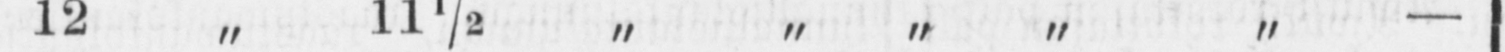12 „ 11½ „ „ „ „ „ —
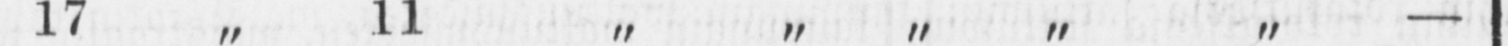17 „ 11 „ „ „ „ „ —
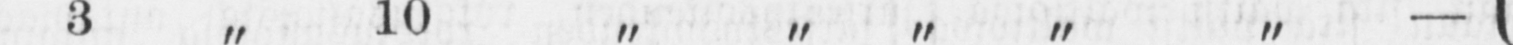3 „ 10 „ „ „ „ „ —
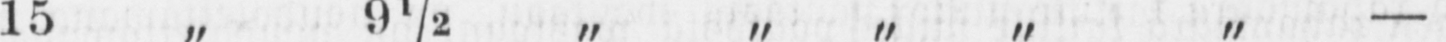15 „ 9½ „ „ „ „ „ —
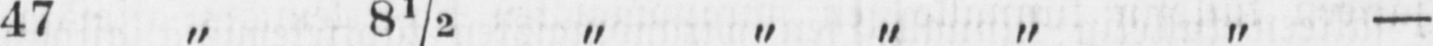47 „ 8½ „ „ „ „ „ —
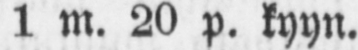1 m. 20 p. kyyn.
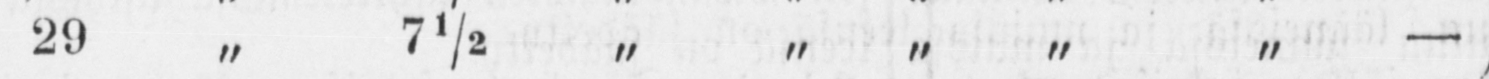29 „ 7½ „ „ „ „ „ —
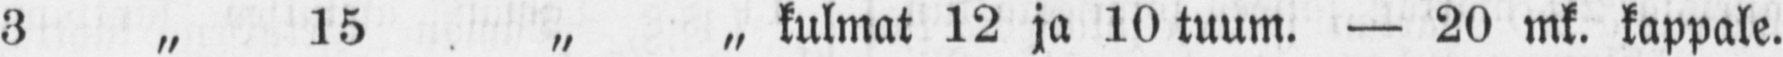3 „ 15 „ „ kulmat 12 ja 10 tuum. — 20 mk. kappale.
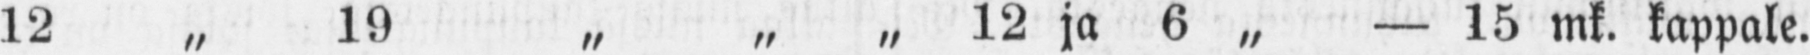12 „ 19 „ „ „ 12 ja 6 „ — 15 mk. kappale.
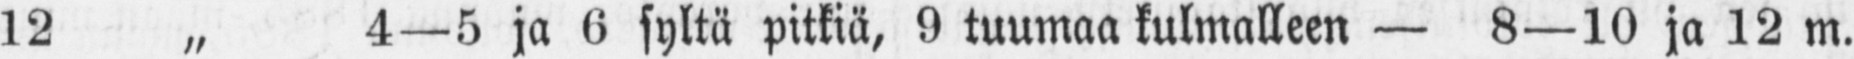12 „ 4—5 ja 6 syltä pitkiä, 9 tuumaa kulmalleen — 8—10 ja 12 m.
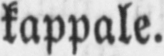kappale.
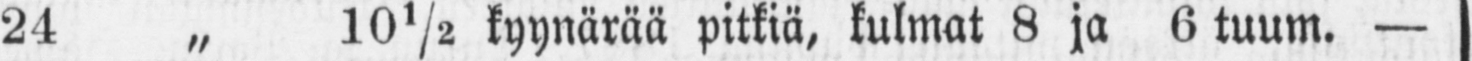24 „ 10½ kyynärää pitkiä, kulmat 8 ja 6 tuum. —
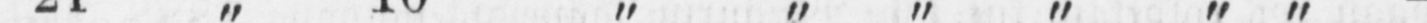21 „ 10 „ „ „ „ „ „ „ —
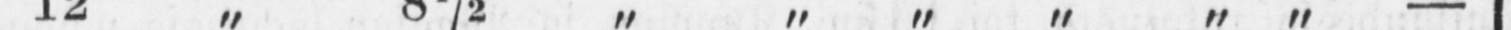12 „ 8½ „ „ „ „ „ „ —
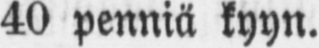40 penniä kyyn.
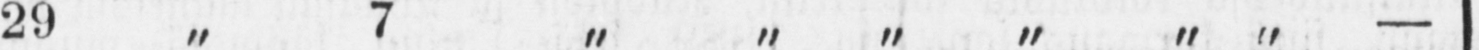29 „ 7 „ „ „ „ „ „ —
